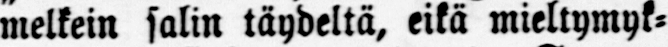melkein salin täydeltä, eikä mieltymyk-
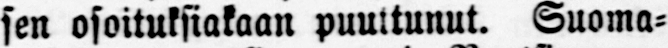sen osoituksiakaan puuttunut. Suoma-
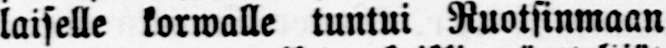laiselle karwalle tuntui Ruotsinmaan
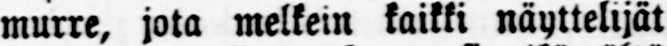murre, jota melkein kaikki näyttelijät
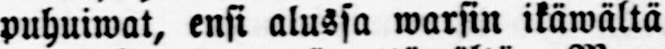puhuiwat, ensi alussa warsin itäwältä
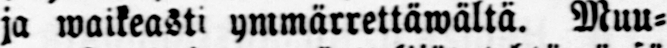ja waikeasti ymmärrettäwältä. Muu-
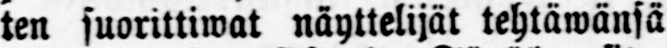ten suorittiwat näyttelijät tehtäwänsä
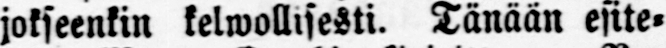jokseenkin kelwollisesti. Tänään esite-
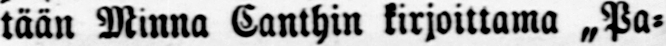tään Minna Canthin kirjoittama „Pa-
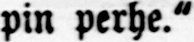pin perhe."
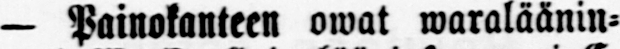— Painokanteen owat waraläänin-
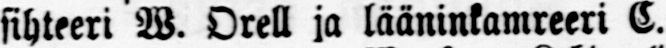sihteeri W. Orell ja lääninkamreeri C.
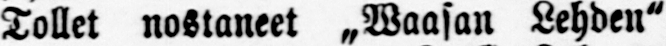Tollet nostaneet „Waasan Lehden"
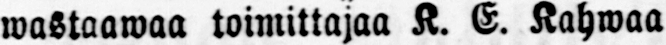wastaawaa toimittajaa K. E. Kahwaa
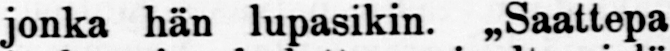jonka hän lupasikin. „Saattepa
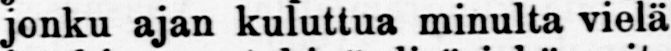jonku ajan kuluttua minulta vielä
